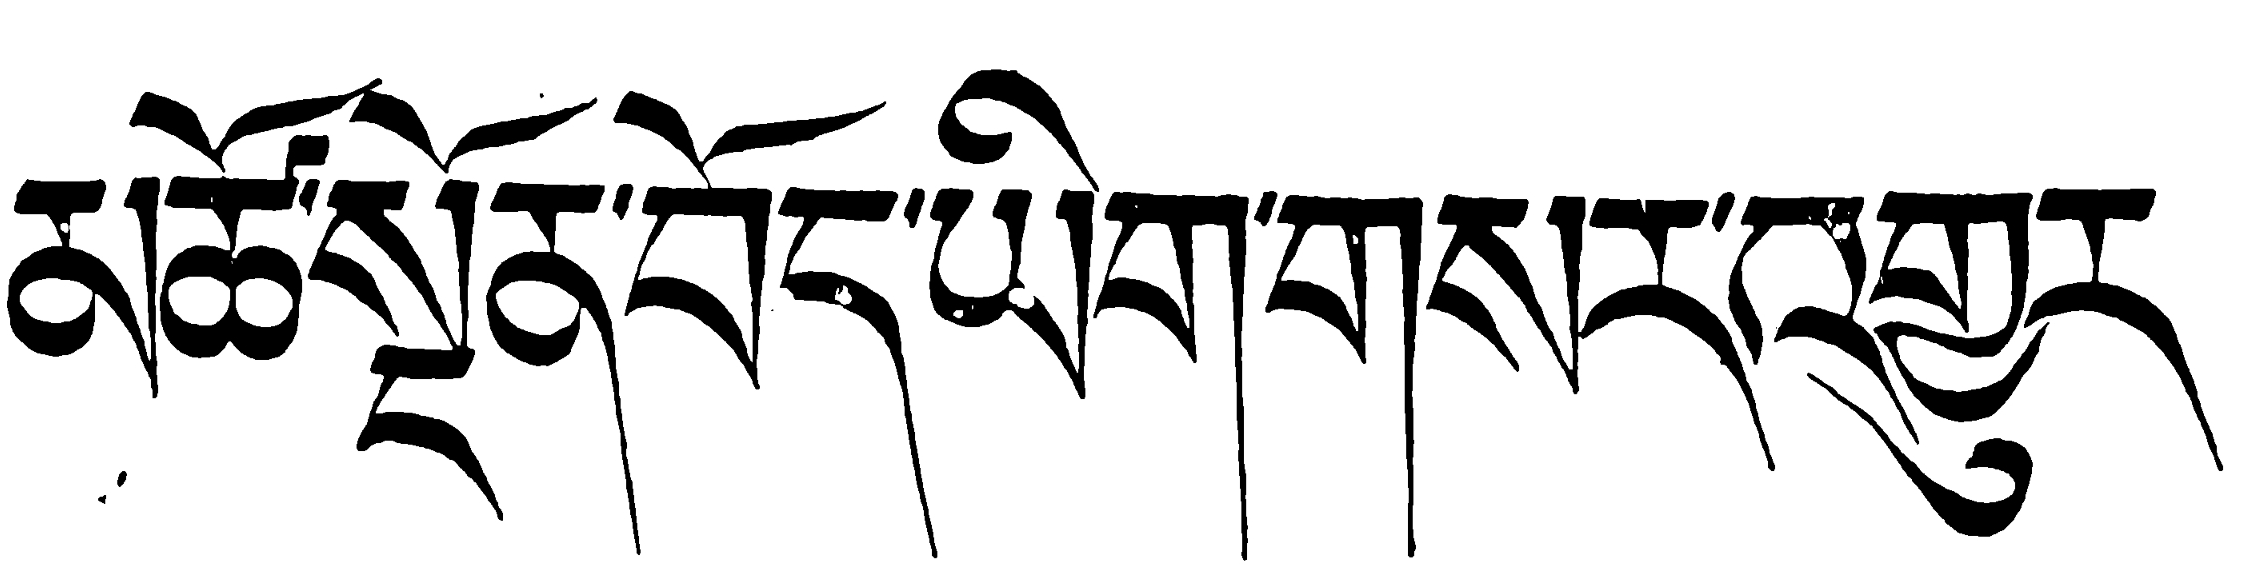མཚོ་སྔོན་བོད་ཡིག་གསར་འགྱུར
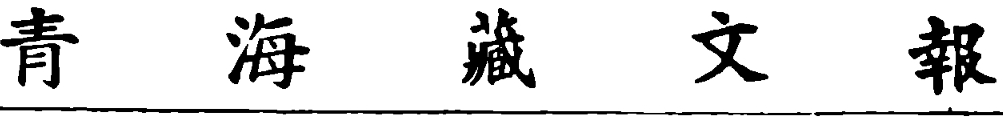青 海 藏 文 報
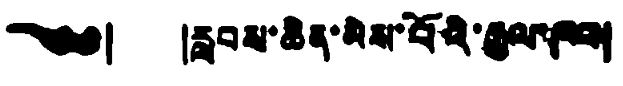༄༅། །རླབས་ཆེན་མེས་པོའི་རྒྱལ་ཁབ།
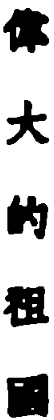偉 大 的 祖 國
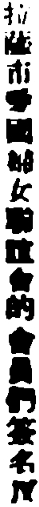拉薩市愛國婦女聯誼會的會員們簽名反
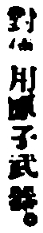對使用原子武器。
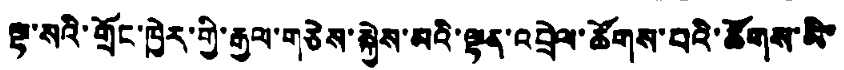ལྷ་སའི་གྲོང་ཁྱེར་གྱི་རྒྱལ་གཅེས་སྐྱེལ་མའི་ལྷན་འབྲེལ་ཚོགས་པའི་ཚོགས་མི་
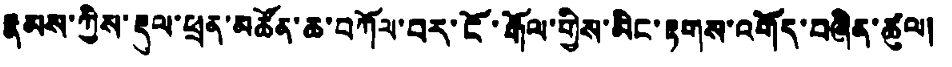རྣམས་ཀྱིས་རྡུལ་ཕྲན་མཚོན་ཆ་བཀོལ་བར་ངོ་རྒོལ་གྱིས་མིང་རྟགས་འགོད་བཞིན་ཚུལ།
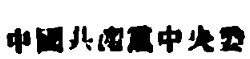中國共產黨中央委
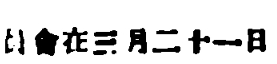員會在三月二十一日
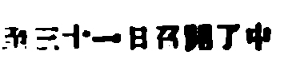至三十一日召開了中
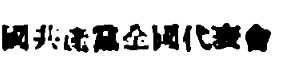國共產黨全國代表會
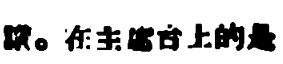議。在主席台上的是
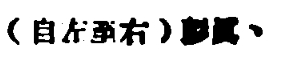（自左至右）彭眞、
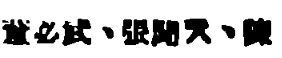董必武、張聞天、陳
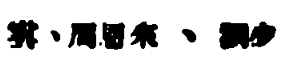雲、周恩來、劉少
